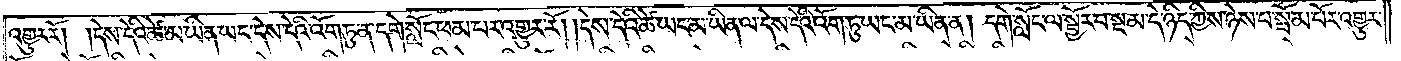འགྱུར་རོ། །དེས་དེའི་ཚེ་མ་ཡིན་ཡང་དེས་དེའི་འོག་ཏུ་ན་དགེ་སློང་ཕམ་པར་འགྱུར་རོ། །དེས་དེའི་ཚེ་ཡང་མ་ཡིན་ལ་དས་དེའི་འོག་ཏུ་ཡང་མ་ཡིན་ན། དགེ་སློང་ལ་སྦྱོར་བ་སྔ་མ་དེ་ཉིད་ཀྱིས་ཉེས་པ་སྦོམ་པོར་འགྱུར་
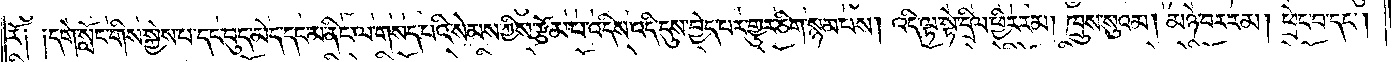རོ༑ ༑དགེ་སློང་གིས་སྐྱེས་པ་དང་བུད་མེད་དང་མ་ནིང་ལ་གསད་པའི་སེམས་ཀྱིས་རྩོམ་པ་འདིས་འདི་དུས་བྱེད་པར་འགྱུར་ཅིག་སྙམ་པས། འདི་ལྟ་སྟེ་དྲིལ་ཕྱིར་རམ། ཁྲུས་སུའམ། མཉེ་བར་རམ། ཕྲེང་བ་དང༌།
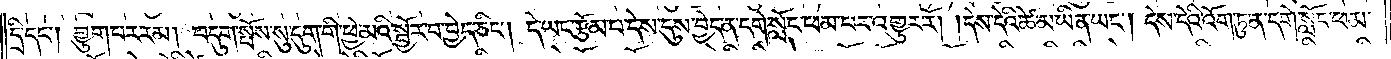དྲི་དང༌། བྱུག་པར་རམ། བདུག་སྤོས་སུ་དུག་གི་ཕྱེ་མའི་སྦྱོར་བ་བྱེད་ཅིང༌། དེ་ཡང་རྩོམ་པ་དེས་དུས་བྱེད་ན་དགེ་སློང་ཕམ་པར་འགྱུར་རོ། །དེས་དེའི་ཚེ་མ་ཡིན་ཡང༌། དེས་དེའི་འོག་ཏུ་ན་དགེ་སློང་ཕམ་
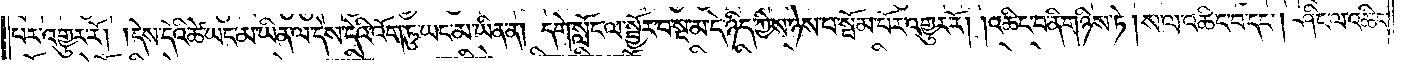པར་འགྱུར་རོ། །དེས་དེའི་ཚེ་ཡང་མ་ཡིན་ལ་དེས་དེའི་འོག་ཏུ་ཡང་མ་ཡིན་ན། དགེ་སློང་ལ་སྦྱོར་བ་སྔ་མ་དེ་ཉིད་ཀྱིས་ཉེས་པ་སྦོམ་པོར་འགྱུར་རོ། །འཆིང་བ་ནི་གཉིས་ཏེ། ས་ལ་འཆིང་བ་དང༌། ཤིང་ལ་འཆིང་
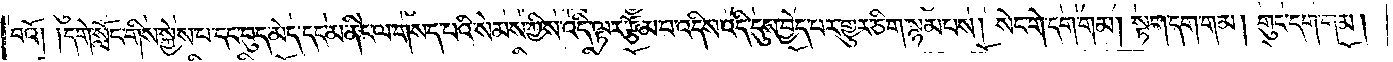བའོ། །དགེ་སློང་གིས་སྐྱེས་པ་དང་བུད་མེད་དང་མ་ནིང་ལ་གསད་པའི་སེམས་ཀྱིས་འདི་ལྟར་རྩོམ་པ་འདིས་འདི་དུས་བྱེད་པར་གྱུར་ཅིག་སྙམ་པས། སེང་གེ་དག་གམ། སྟག་དག་གམ། གུང་དག་གམ།
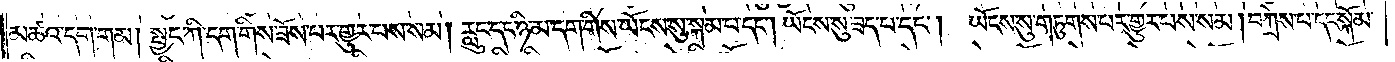མཚའ་དག་གམ། སྤྱང་གི་དག་གིས་ཟོས་པར་གྱུར་པས་སམ། རླུང་དང་ཉི་མ་དག་གིས་ཡོངས་སུ་སྐམ་པ་དང༌། ཡོངས་སུ་ཟད་པ་དང༌། ཡོངས་སུ་གཏུགས་པར་གྱུར་པས་སམ། བཀྲེས་པ་དང་སྐོམ་
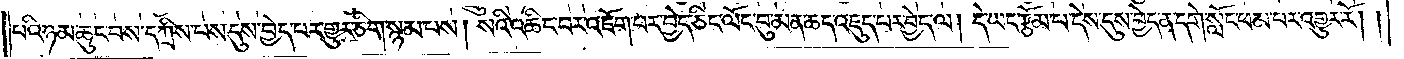པའི་ཉམ་ཆུང་བས་དཀྲིས་པས་དུས་བྱེད་པར་གྱུར་ཅིག་སྙམ་པས། སའི་འཆིང་བར་འཇོག་པར་བྱེད་ཅིང་ལོང་བུ་མན་ཆད་འཇུད་པར་བྱེད་ལ། དེ་ཡང་རྩོམ་པ་དེས་དུས་བྱེད་ན་དགེ་སློང་ཕམ་པར་འགྱུར་རོ། །
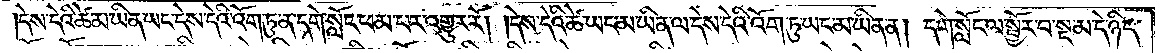དེས་དེའི་ཚེ་མ་ཡིན་ཡང་དེས་དེའི་འོག་ཏུ་ན་དགེ་སློང་ཕམ་པར་འགྱུར་རོ། །དེས་དེའི་ཚེ་ཡང་མ་ཡིན་ལ་དེས་དེའི་འོག་ཏུ་ཡང་མ་ཡིན་ན། དགེ་སློང་ལ་སྦྱོར་བ་སྔ་མ་དེ་ཉིད་
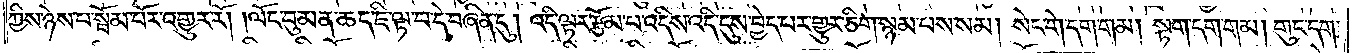ཀྱིས་ཉེས་པ་སྦོམ་པོར་འགྱུར་རོ། །ལོང་བུ་མན་ཆད་ཇི་ལྟ་བ་དེ་བཞིན་དུ། འདི་ལྟར་རྩོམ་པ་འདིས་འདི་དུས་བྱེད་པར་གྱུར་ཅིག་སྙམ་པས་སམ། སེང་གེ་དག་གམ། སྟག་དག་གམ། གུང་དག་
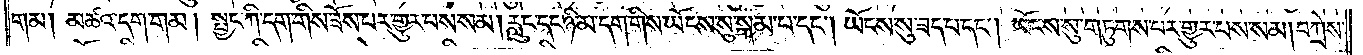གམ། མཚའ་དག་གམ། སྤྱང་གི་དག་གིས་ཟོས་པར་གྱུར་པས་སམ། རླུང་དང་ཉི་མ་དག་གིས་ཡོངས་སུ་སྐམ་པ་དང༌། ཡོངས་སུ་ཟད་པ་དང༌། ཡོངས་སུ་གཏུགས་པར་གྱུར་པས་སམ། བཀྲེས་
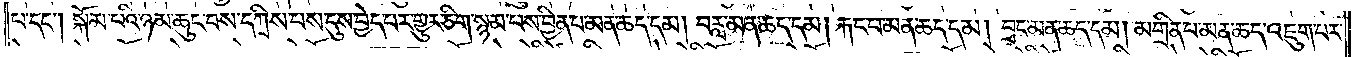པ་དང༌། སྐོམ་པའི་ཉམ་ཆུང་བས་དཀྲིས་པས་དུས་བྱེད་པར་གྱུར་ཅིག་སྙམ་པས་བྱིན་པ་མན་ཆད་དམ། བརླ་མན་ཆད་དམ། རྐང་པ་མན་ཆད་དམ། བྲང་མན་ཆད་དམ། མགྲིན་པ་མན་ཆད་འཇུག་པར་
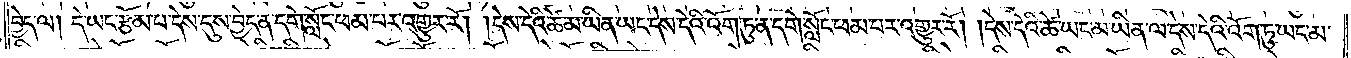བྱེད་ལ། དེ་ཡང་རྩོམ་པ་དེས་དུས་བྱེད་ན་དགེ་སློང་ཕམ་པར་འགྱུར་རོ། །དེས་དེའི་ཚེ་མ་ཡིན་ཡང་དེས་དེའི་འོག་ཏུ་ན་དགེ་སློང་ཕམ་པར་འགྱུར་རོ། །དེས་དེའི་ཚེ་ཡང་མ་ཡིན་ལ་དེས་དེའི་འོག་ཏུ་ཡང་མ་
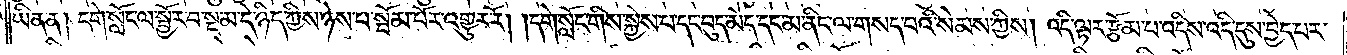ཡིན་ན། དགེ་སློང་ལ་སྦྱོར་བ་སྔ་མ་དེ་ཉིད་ཀྱིས་ཉེས་པ་སྦོམ་པོར་འགྱུར་རོ། །དགེ་སློང་གིས་སྐྱེས་པ་དང་བུད་མེད་དང་མ་ནིང་ལ་གསད་པའི་སེམས་ཀྱིས། འདི་ལྟར་རྩོམ་པ་འདིས་འདི་དུས་བྱེད་པར་
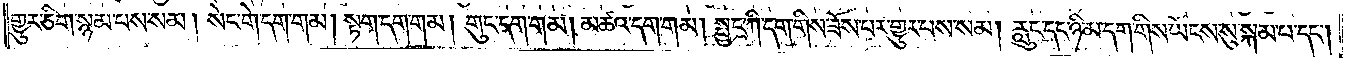གྱུར་ཅིག་སྙམ་པས་སམ། སེང་གེ་དག་གམ། སྟག་དག་གམ། གུང་དག་གམ། མཚའ་དག་གམ། སྤྱང་གི་དག་གིས་ཟོས་པར་གྱུར་པས་སམ། རླུང་དང་ཉི་མ་དག་གིས་ཡོངས་སུ་སྐམ་པ་དང༌།
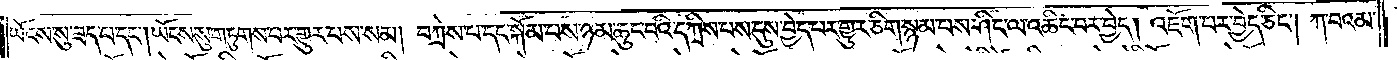ཡོངས་སུ་ཟད་པ་དང༌། ཡོངས་སུ་གཏུགས་པར་གྱུར་པས་སམ། བཀྲེས་པ་དང་སྐོམ་པས་ཉམ་ཆུང་བའི་དཀྲིས་པས་དུས་བྱེད་པར་གྱུར་ཅིག་སྙམ་པས་ཤིང་ལ་འཆིང་བར་བྱེད། འཇོག་པར་བྱེད་ཅིང༌། ཀ་བའམ་
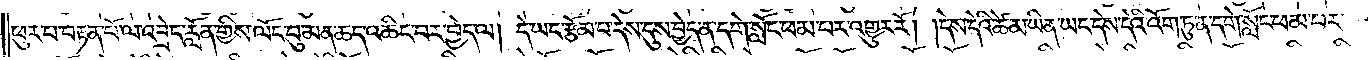ཕུར་བ་བརྟན་པོ་ལ་འབྲེད་རློན་གྱིས་ལོང་བུ་མན་ཆད་འཆིང་བར་བྱེད་ལ། དེ་ཡང་རྩོམ་པ་དེས་དུས་བྱེད་ན་དགེ་སློང་ཕམ་པར་འགྱུར་རོ། །དེས་དེའི་ཚེ་མ་ཡིན་ཡང་དེས་དེའི་འོག་ཏུ་ན་དགེ་སློང་ཕམ་པར་
